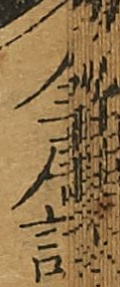全唐詩
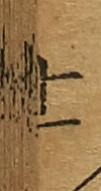十一
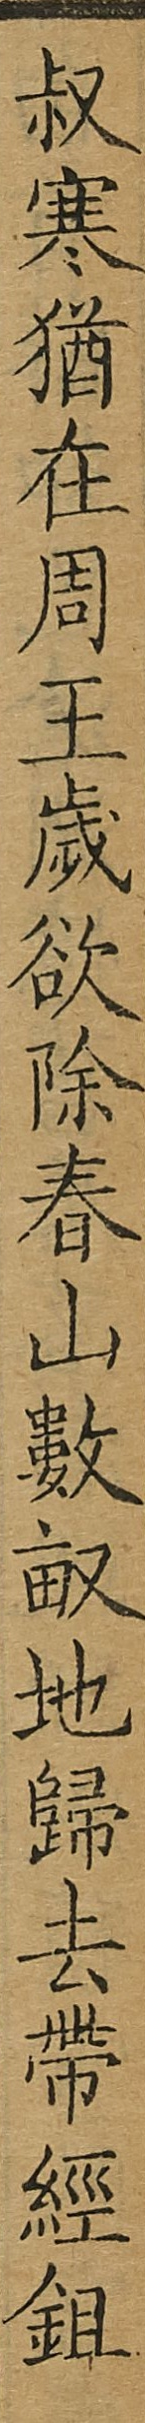叔寒猶在周王歲欲除春山數畝地歸去帶經鉏
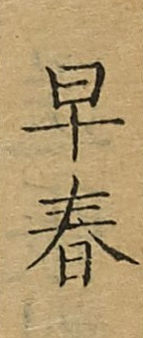早春
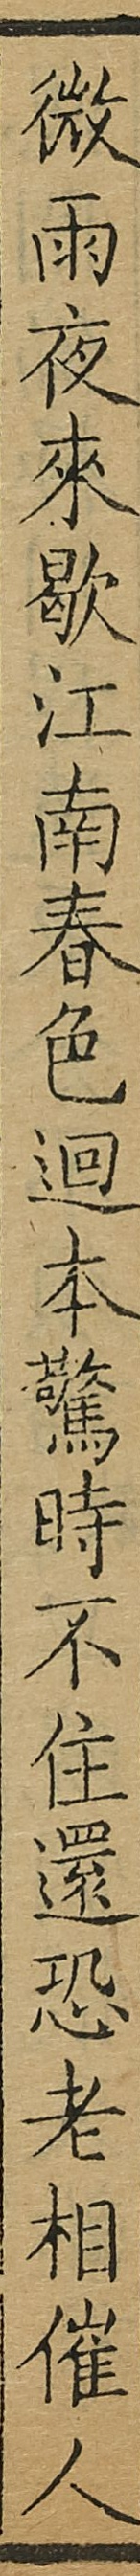微雨夜來歇江南春色迴本驚時不住還恐老相催人
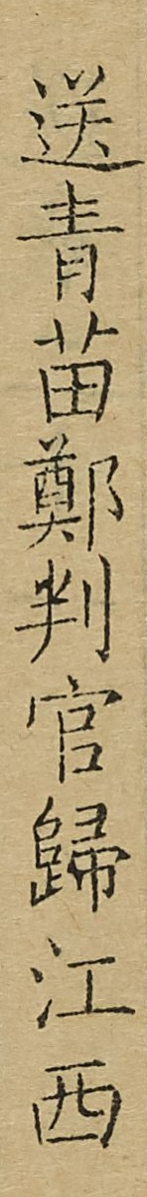送青苗鄭判官歸江西
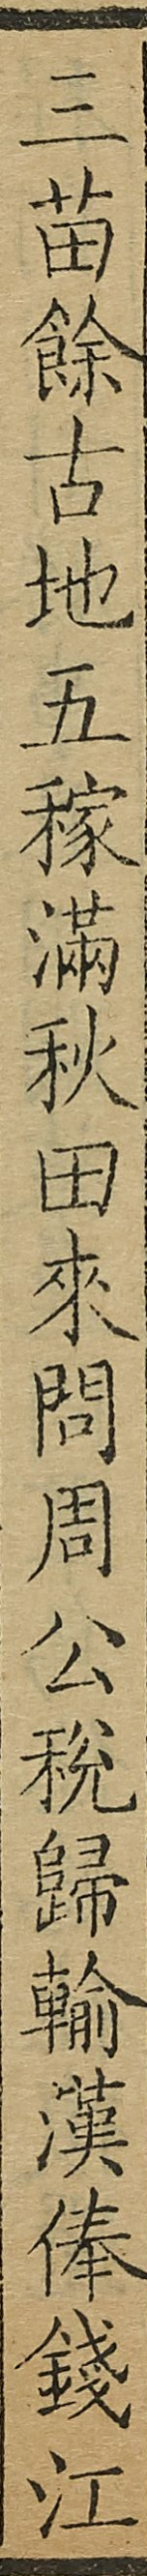三苗餘古地五稼滿秋田來問周公稅歸輸漢俸錢江
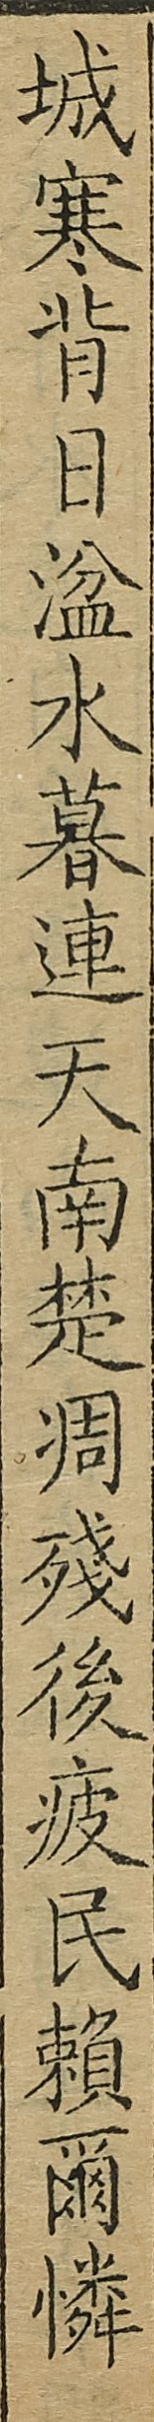城寒背日湓水暮連天南楚凋殘後疲民賴爾憐
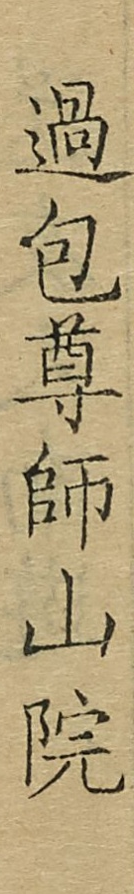過包尊師山院
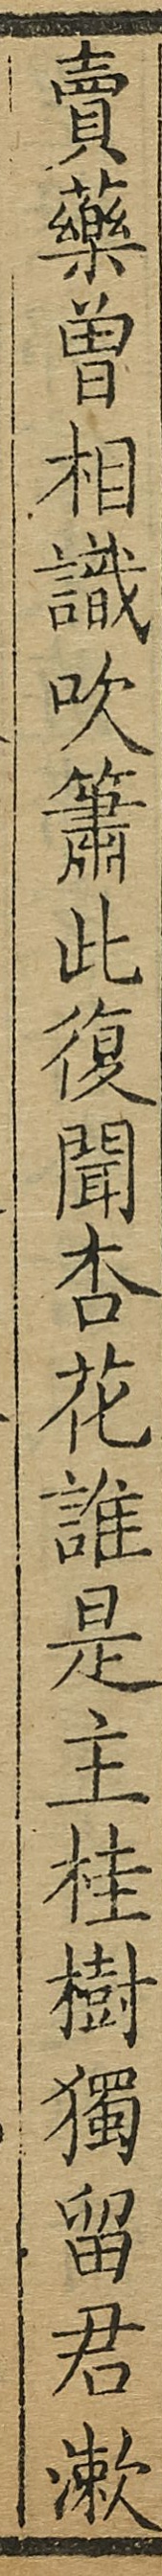賣藥曾相識吹蕭此復聞杏花誰是主桂樹獨留君漱
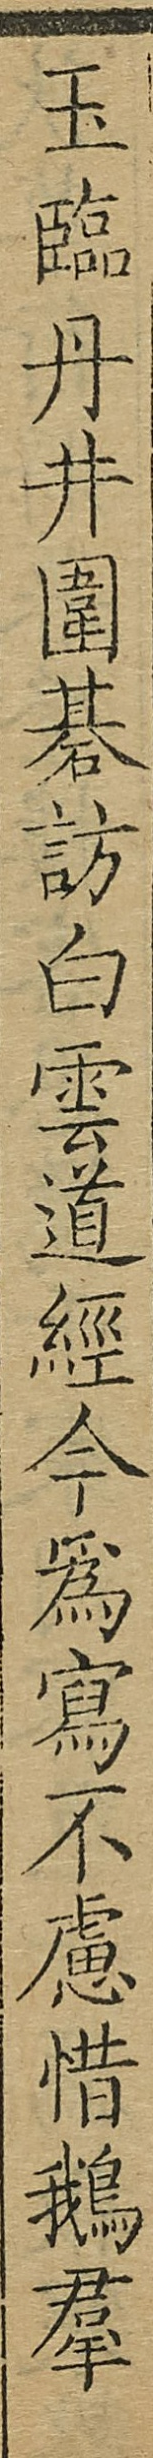玉臨丹井圍碁訪白雲道經今為寫不慮惜鵝羣
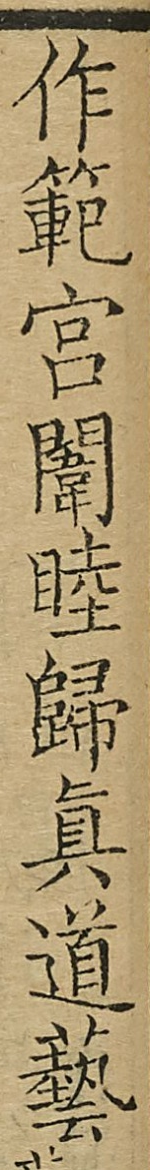作範宮闈睦歸真道藝
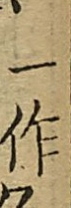一作
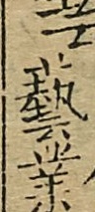藝業
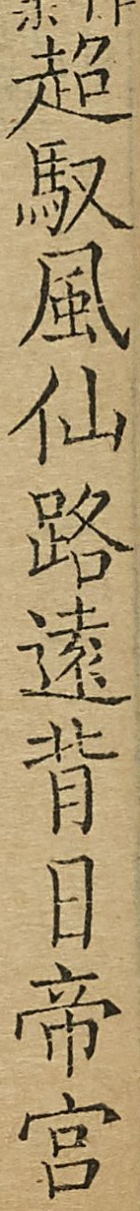超馭風仙路遠背日帝宮
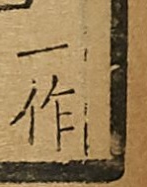一作
